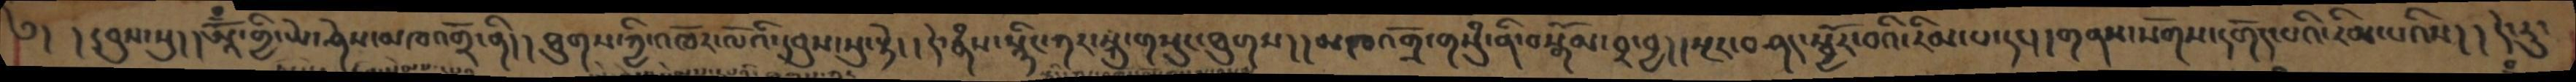༄། །དབུས་སུ། །ཨཱོྃ་གྱི་ཡེ་ཤེས་མཁའགྲོ་ནི། །ཐུགས་ཀྱི་འཁོར་ལོའི་དབུས་སུ་སྟེ། །དེ་རྣཾས་སྙིང་ཀར་སྐུ་གསུང་ཐུགས། །མཁའགྲོ་གསུཾ་ནི་བསྒོམ་བར་བྱ། །སྔར་བཤད་སྦྱོར་བའི་རིམ་པ་དང་། །གནས་སོགས་དགོད་པའི་རིམ་པའིས། །དེ་རུ་
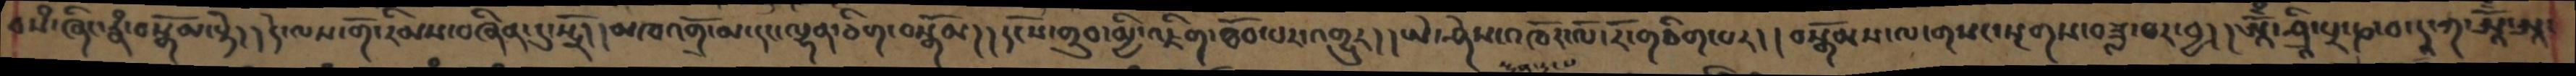བསཾ་ཞིང་རྣཾ་བསྒོམ་སྟེ། །དེ་ལས་གོ་རིམས་བཞིན་དུ་སྤྲོ། །མཁའགྲོ་མ་དང་ལྷན་ཅིག་བསྒོམ། །དངོས་གྲུབ་མྱི་འཇིག་ཐོབ་པར་འགྱུར། །ཡེ་ཤེས་འཁོར་ལོ་རོ་གཅིག་པར། །བསྒོམས་ལ་གསང་སྔགས་བཟླ་བར་བྱ། །ཨཱོྃ་ཤྲི་པྲ་ཎ་བ་དཱ་ཀ་ཨཱོྃ་ཨཱ་
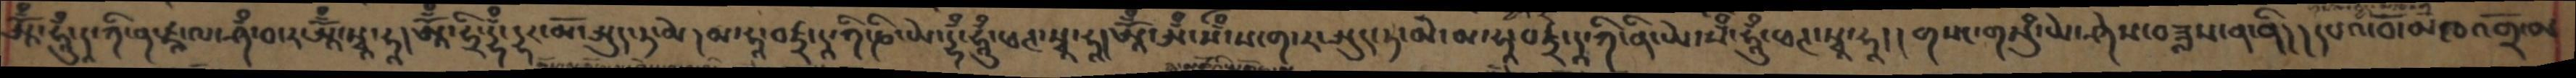ཨཱོྃ་ཧཱུྃ་དཱ་ཀི་ན་ཛྭ་ལ་ཤྃ་བ་ར་ཨཱོྃ་སྭཱ་ཧཱ། ཨཱོྃ་ཧྲི་དྷྃ་དྷར་མོ་ཨུད་ཏ་མེ། མ་ཧཱ་བཛྲ་དཱ་ཀི་ཎི་ཡེ་དྷྃ་ཧཱུྃ་ཕཊ་སྭཱ་ཧཱ། ཨཱོྃ་ཨྃ་སྃ་ས་ག་ར་ཨུད་ཏ་མེ་མ་ཧཱ་བཛྲ་དཱ་ཀི་ནི་ཡེ་སྃ་ཧཱུྃ་ཕཊ་སྭཱ་ཧཱ། །གསང་གསུཾ་ཡེ་ཤེས་བཟླས་ན་ནི། །དཔའ་བོ་མཁའགྲོ་མ
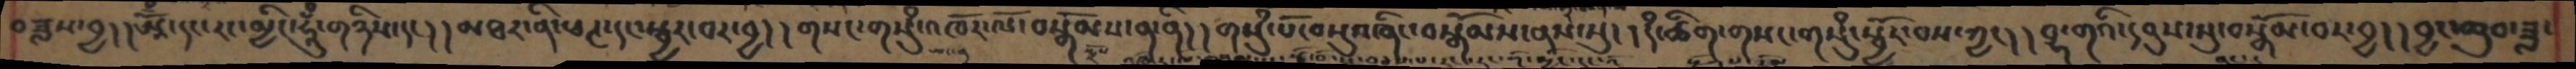བཟླས་བྱ། །ཨཱོྃ་དང་རང་མྱིང་ཧཱུྃ་གཉིས་དང། །མཐར་ནི་ཕཊ་དང་སྦྱར་བར་བྱ། །གསང་གསུཾ་འཁོར་ལོ་བསྒོམས་ན་ནི། །གསུཾ་པོ་བསྡུའཞིང་བསྒོམས་ནས་སུ། །དཾ་ཚིག་གསང་གསུཾ་སྦྱོར་བས་ཀྱང། །བྷ་གའི་དབུས་སུ་བསྒོམ་བར་བྱ། །བྱང་ཆུབ་ཟླ་
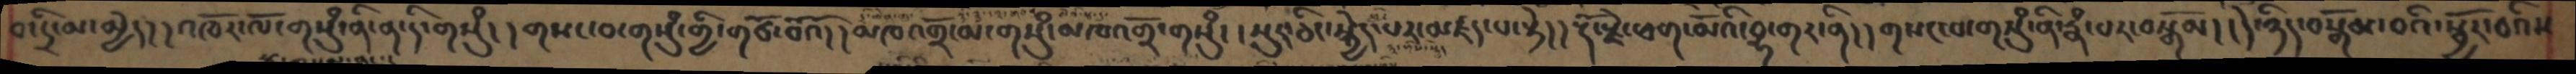བ་དྲི་མ་མྱེད། །འཁོར་ལོ་གསུཾ་ནི་ན་དི་གསུཾ། །གསང་བ་གསུཾ་གྱི་གཙོ་བོའོ། །མཁའགྲོ་མ་གསུཾ་མཁའགྲོ་གསུཾ། །སྡུད་ཅིང་སྐྱེད་པར་མཛད་པ་སྟེ།། རྡོ་རྗེ་ཕག་མོའི་བྷ་གར་ནི།། གསང་བ་གསུཾ་ནི་རྣཾ་པར་བསྒོམ། །དེ་ཉིད་བསྒོམ་བའི་སྦྱོར་བའིས
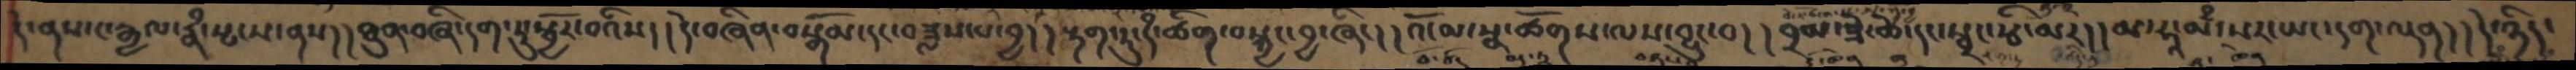དེ་ནས་ང་རྒྱལ་རྣཾ་སྤངས་ནས། །ཐུན་བཞི་དག་ཏུ་སྦྱོར་བའིས། །དེ་བཞིན་བསྒོམ་དང་བཟླས་པ་བྱ། །རྟག་ཏུ་དཾ་ཚིག་བསྐྱང་བྱ་ཞིང། །འོ་མ་སྣ་ཚོགས་ལས་བྱུང་བ། །བྲམ་ཟེ་ཚེ་དང་སྦྲང་རྩི་མར། །མ་ཧཱ་མྃ་སར་ཡང་དག་ལྡན། །དེ་ཉིད་
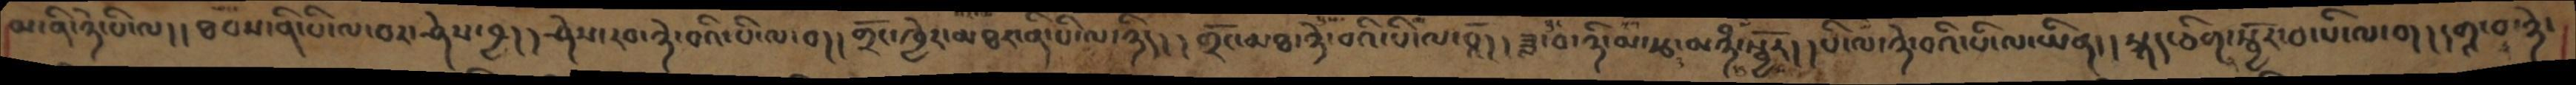མ་ནི་ཉེ་པི་ལ། །ཐབས་ནི་པི་ལ་བར་ཤེས་བྱ། །ཤེས་རབ་ཉེ་བའི་པི་ལ་བ། །གྲོང་ཁྱེར་མཐར་ནི་པི་ལ་ཉིད། །གྲོང་ཁྱེར་ཉེ་བའི་པི་ལ་བའོ། །ཟླ་བ་ཉི་མ་རྩ་མཉཾ་སྦྱོར། །པི་ལ་ཉེ་བའི་པི་ལ་ཡིན། །སྐད་ཅིག་སྦྱོར་བ་པི་ལ་བ། །དགའ་བ་ཉེ་
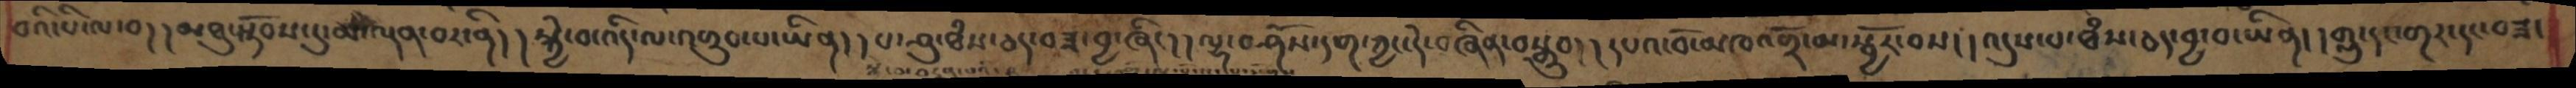བའི་པི་ལ་བ། །མཐུ་སྟོབས་དུ་མ་ལྡན་བར་ནི། །སྐྱེ་བ་འདི་ལ་འགྲུབ་པ་ཡིན། །པ་ཤུ་ཐཾས་ཅད་བཟ་བྱ་ཞིང། །ལྷ་བཤོས་དག་ཀྱང་དེ་བཞིན་བསྒྲུབ། །དཔའ་བོ་མཁའགྲོ་མ་སྦྱོར་བས། །འདུས་པ་ཐཾས་ཅད་བྱ་བ་ཡིན། །གླུ་དང་གར་དང་བཟང
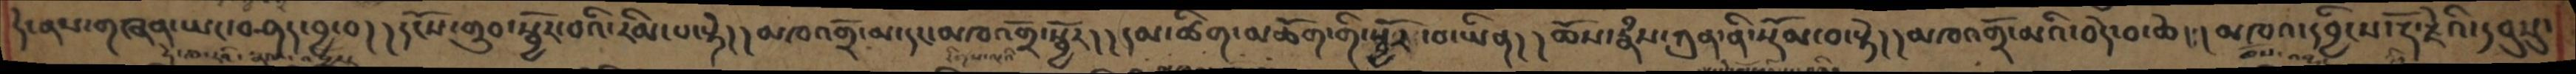དེ་ནས་གཞན་ཡང་བཤད་བྱ་བ། །དངོས་གྲུབ་སྦྱོར་བའི་རིམ་པ་སྟེ། །མཁའགྲོ་མ་དང་མཁའགྲོ་སྦྱོར། །དམ་ཚིག་མཆོག་གི་སྦྱོར་བཡིན། །ཆོས་རྣཾས་ཀུན་ནི་སྡོམ་བ་སྟེ། །མཁའགྲོ་མའི་བདེ་བ་ཆེ། །མཁའ་དབྱིངས་རྡོ་རྗེའི་དབུསུ་
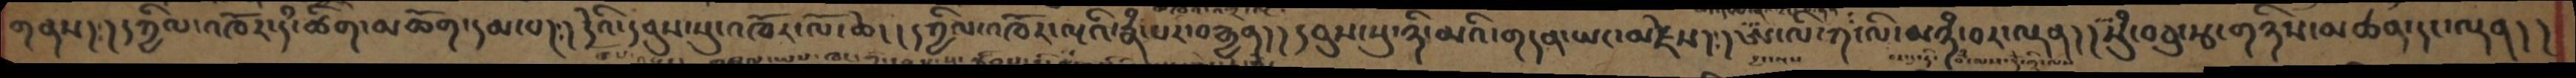གནས། །དཀྱིལ་འཁོར་དཾ་ཚིག་མཆོག་དམ་པ། །དེའི་དབུས་སུ་འཁོར་ལོ་ཆེ། །དཀྱིལ་འཁོར་ལྔའི་རྣཾ་པར་བརྒྱན། །དབུས་སུ་ཉི་མའི་གདན་ཡང་མཛེས། །ཨ་ལི་ཀ་ལི་མཉཾ་པར་ལྡན། །སུཾ་བཅུ་རྩ་གཉིས་མཚན་དང་ལྡན། །
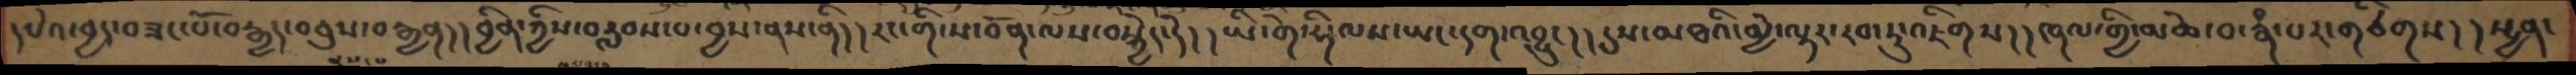དཔེའ་བྱད་བཟང་པོ་བརྒྱད་བཅུས་བརྒྱན། །བྱིན་ཀྱིས་བརླབས་པ་བྱས་ནས་ནི། །རང་གི་ས་བོན་ལས་བསྐྱེད་དེ། །ཡི་གེ་ཧི་ལས་ཡང་དག་འབྱུང། །དུས་མཐའི་མྱེ་ལྟར་རབ་ཏུ་འཇིགས། །ཞལ་གྱི་མཆེ་བ་རྣཾ་པར་གཙིགས། །སྤྱན་
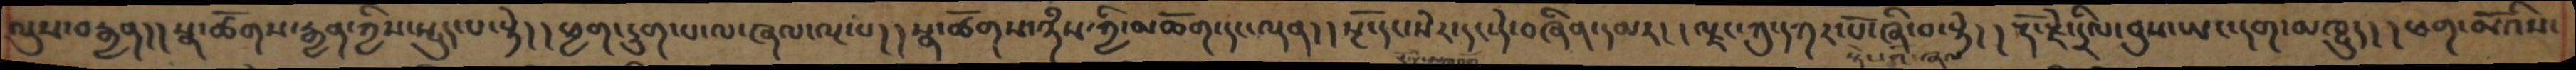ལུས་བརྒྱན།། སྣ་ཚོགས་རྒྱན་ཀྱིས་སྤུད་པ་སྟེ། །ཕྱག་དྲུག་པ་ལ་ཞལ་ལྔ་པ། །སྣ་ཚོགས་ཉཾས་ཀྱི་མཆོག་དང་ལྡན། །སྔོ་དང་སེར་དང་དེ་བཞིན་དམར། །ལྗང་ཀུ་དཀར་པོ་ཞི་བ་སྟེ། །རྡོ་རྗེ་དྲིལ་བུས་ཡང་དག་མཁྱུད། །ཕག་མོའིས་
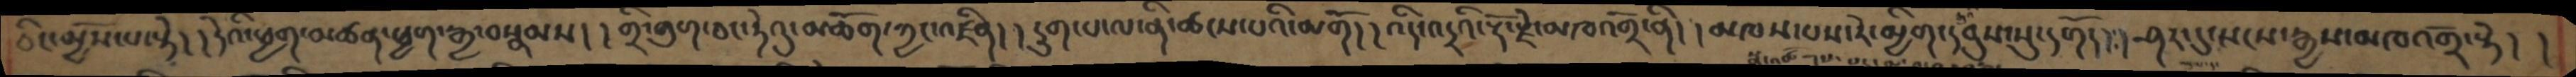ཅིང་མྱོས་པ་སྟེ། །དེའི་ཕྱག་མཚན་ཕྱག་རྒྱ་བསྣམས། །གྲི་གུག་ཅང་ཏེའུ་མཆོག་ཀྱང་འཛིན། །དྲུག་པ་ལ་ནི་ཚངས་པའི་མགོ། །འདི་འདྲའི་རྡོ་རྗེ་མཁའགྲོ་ནི། །མཁས་པས་རེ་མྱིག་དབུས་སུ་དགོད། །ཤར་དུ་སངས་རྒྱས་མཁའགྲོ་སྟེ། །
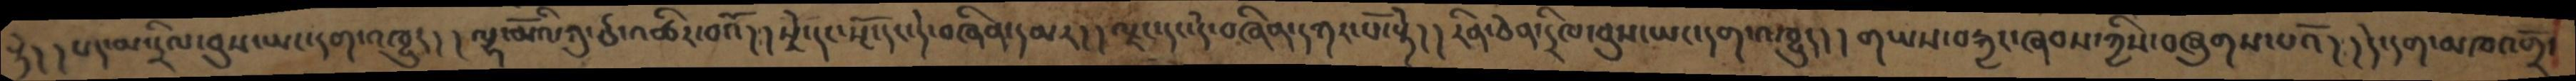སྟེ། །པད་མ་དྲིལ་བུས་ཡང་དག་འཁྱུད། །ལྷ་མོའི་ཀུ་ཙ་འཚིར་བའོ། །སེར་དང་སྔོ་དང་དེ་བཞིན་དམར། །ལྗང་དང་དེ་བཞིན་དཀར་པོ་སྟེ། །རིན་ཅེན་དྲིལ་བུས་ཡང་དག་འཁྱུད། །གཡས་བརྐྱང་ཞབས་ཀྱིས་བཞུགས་པའོ། །དེ་དག་མཁའགྲོ་
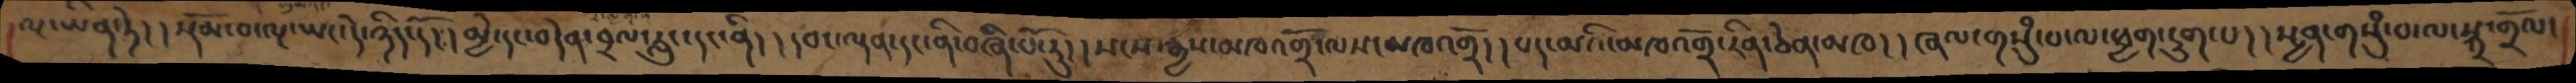ལྔ་ཡིན་ཏེ། །སྡོམ་བ་ལྔ་ཡང་དེ་ཉིད་དོ། །མྱེ་དང་བདེན་བྲལ་རླུང་དང་ནི། །དབང་ལྡན་དང་ནི་བཞི་པོ་རུ། །སངས་རྒྱས་མཁའགྲོ་ལས་མཁའགྲོ། །པད་མའི་མཁའགྲོ་རིན་ཅེན་མཁ། །ཞལ་གསུཾ་པ་ལ་ཕྱག་དྲུག་པ། །སྤྱན་གསུཾ་བ་ལ་སྐྲ་གྲོལ་
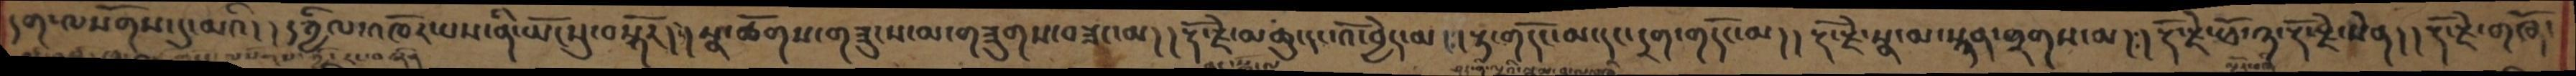དག་ལསོགས་དུ་མའི། །དཀྱིལ་འཁོར་པས་ནི་ཡོངསུ་བསྐོར། །སྣ་ཚོགས་གཟུངས་མ་གཟུགས་བཟང་མ། །རྡོ་རྗེ་མཆུ་དང་འོ་བྱེད་མ། །རྟ་གདོང་མ་དང་དྲག་གདོང་མ། །རྡོ་རྗེ་སྣ་མ་སྙན་གྲགས་མ། །རྡོ་རྗེ་ཕོ་ཉ་རྡོ་རྗེ་སེན། །རྡོ་རྗེ་གཞོ་
